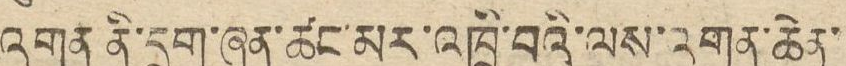འགན ནི་དྲག་ཞན་ཚང་མར་འཁྲི་བའི་ལས་འགན་ཆེན་
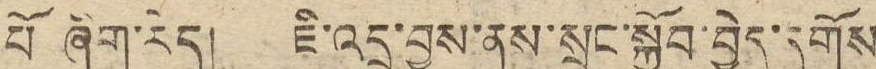པོ ཞིག་རེད། ཇི་འདྲ་བྱས་ནས་སྲུང་སྐྱོབ་བྱེད་དགོས
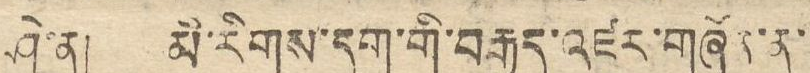ཤེ་ན། མི་རིགས་དག་གི་བརྒྱུད་འཛར་གཞོན་ནུ་
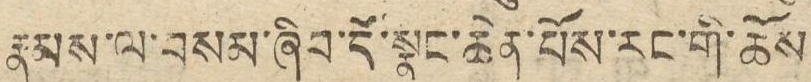རྣམས་ལ་བསམ་ཞིབ་དོ་སྣང་ཆེན་པོས་རང་གི་ཆོས
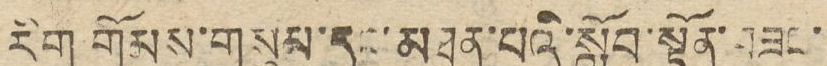རིག གོམས་གསུམ་དང་མཐུན་པའི་སློན་སྟོན་བཟང་
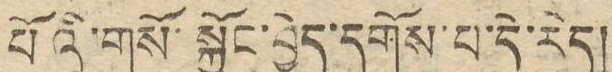པོའི་གསོ་སྐྱོང་བྱེད་དགོས་པ་དེ་རེད།
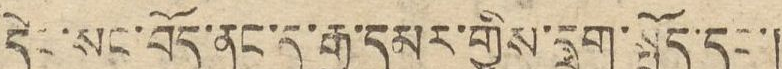དེང་སང་བོད་ནང་དུ་རྒྱ་དམར་གྱིས་དྲག་སྤྱོད་དང་།
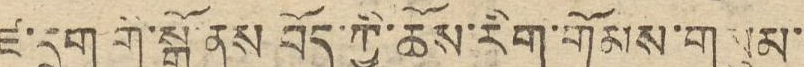ཛ་དྲག གི་སྒོ་ནས བོད་ཀྱི་ཆོས་རིག་གོམས་གསུམ་
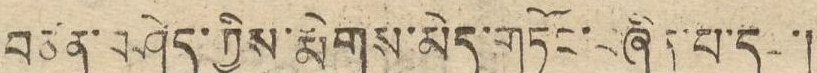བཙན་བཤེད་ཀྱིས་རྨེགས་མེད་གཏོང་བཞིན་པ་དང་།
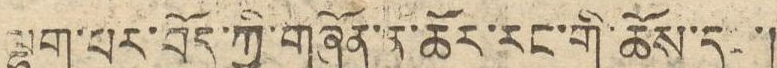ལྷག་པར་བོད་ཀྱི་གཞོན་ནུ་ཚོར་རང་གི་ཆོས་དང་།
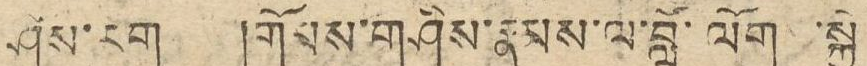ཤེས་རིག །གོམས་གཤིས་རྣམས་ལ་བློ་ལོགས་སྐྱེ
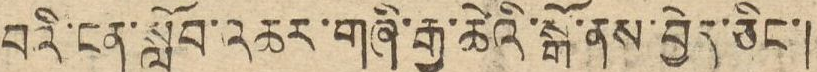བའི་ངན་སློབ་འཆར་གཞི་རྒྱ་ཆེའི་སྒོ་ནས་བྱེད་ཅིང་།
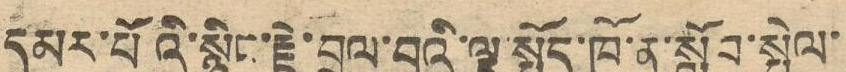དམར་པོའི་སྙིང་རྗེ་བྲལ་བའི་ལྟ་སྤྱོད་ཁོ་ན་སློབ་སྤེལ་
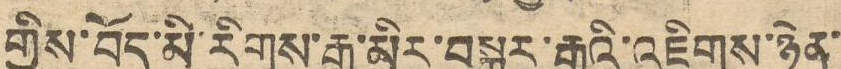གྱིས་བོད་མི་རིགས་རྒྱ་མིར་བསྒྱུར་རྒྱུའི་འཇིགས་ཉེན་
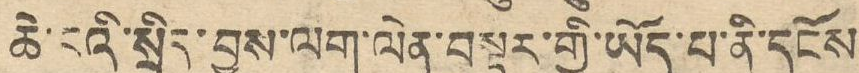ཆེ་བའི་སྲིད་བྱུས་ལག་ལེན་བསྟར་གྱི་ཡོད་པ་ནི་དངོས
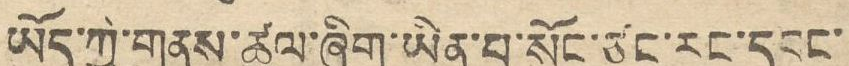ཡོད་ཀྱི་གནས་ཚུལ་ཞིག་ཡིན་པ་སོང་ཙང་རང་དབང་
